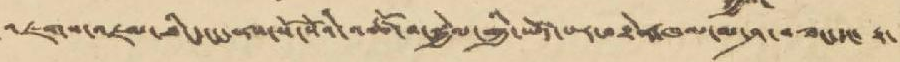འཇགས་འཇམ་ཐིང་ངང་ནས་སོ་སོའི་འཚོ་བ་སྐྱེལ་གྱི་ཡོད་པར་བརྟེན་ཁལ་མ་ཤ་བཟང་དང་ རྟ་
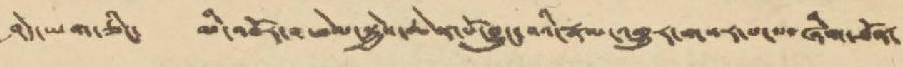ཤེད་ཡག་ཅིང་ མི་འབོར་འཕེལ་སྐྱེས་ཆེན་པོ་བྱུང་བའི་རྣམ་འགྱུར་གསར་པ་་་་ཞིག་ཐོན་
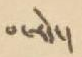པ་རེད་།
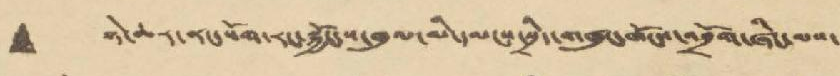• ཉེ་ཆར་ནང་སོག་རང་སྐྱོང་ས་ཁུལ་མི་དམངས་སྲིད་གཞུང་ཁོངས་འབྲོག་ཞིང་ལས་
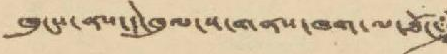ཁུངས་ནས་དེ་ཁུལ་ས་གནས་ཁག་ལ་ཐོང་
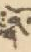ག
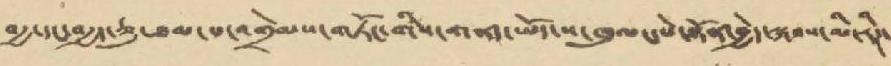བརྒྱ་དང་བརྒྱད་ཅུ་ཐམ་པ་འགྲེམས་གཏོང་གིས་གནད་ཡོད་ས་ཁུལ་པེ་སྟོན་བྱེད་སྐབས་མི་རིཊ་
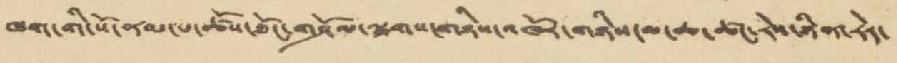ཁག་གི་སོ་ནམ་པ་ཚོས་ཐོང་གཤོམ་ལྕགས་གཉིས་འཁོར་གཉིས་མ་ཆ་ཚང་རེ་ཉིན་རེར་
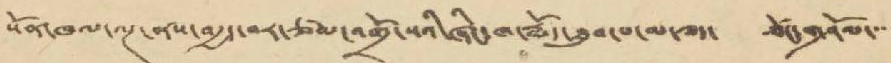སོན་ཁལ་ལྔ་ནས་བརྒྱད་བར་ཙམ་འགྲོ་སའི་ཞིང་ཁ་རྨོད་ཐུབ་པ་མ་ཟད་ ཐོང་གཤོམ་་་་
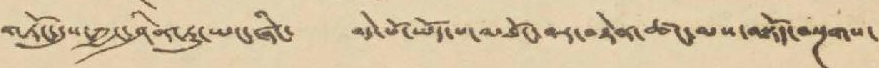གཏོང་དུས་ཀྱང་ཤིན་ཏུ་ཡང་ཞིང་ བདེ་པོ་ཡོད་པ་མཐོང་བར་བརྟེན་ཚང་མས་བསྟོད་བསྔགས་
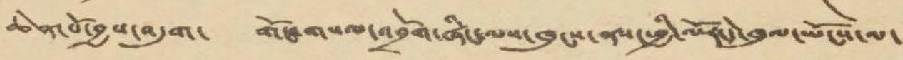ཆེན་པོ་བྱས་འདུག་ གོང་གསལ་འབྲོག་ཞིང་ལས་ཁུངས་ནས་ཕྱི་ལོར་དེ་ཁུལ་ཡོངས་ལ་
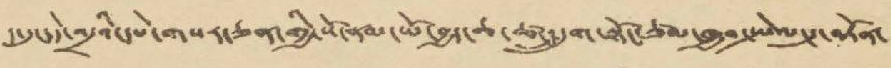ད་དུང་དེ་འདྲའི་དཔེ་གསར་ཅན་གྱི་སོ་ནམ་ཡོ་བྱད་ཆ་ཚང་དྲུག་སྟོང་ཙམ་ཁྱབ་སྤེལ་དུ་བཏོན་
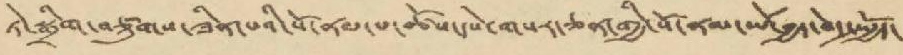ཏེ་སྒྲིག་བཙུགས་ཟིན་པའི་སོ་ནམ་པ་ཚོས་དཔེ་གསར་ཅན་གྱི་སོ་ནམ་ཡོ་བྱད་བདེ་སྤྱོད་
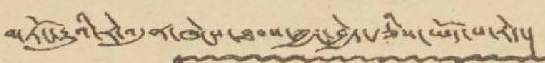གཏོང་རྒྱུའི་རེ་འདུན་ཁེངས་ཐབས་ཀྱང་བྱེད་རྩིས་ཡོད་པ་རེད་།
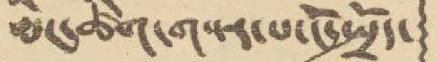མིང་ཚིག་གསར་པ་ངོ་སྤྲོད་
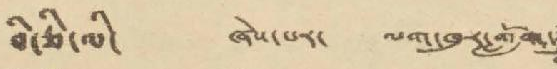བི་ཅི་ལི་ ཞེས་པར་ ལག་ཁུར་གློག་
